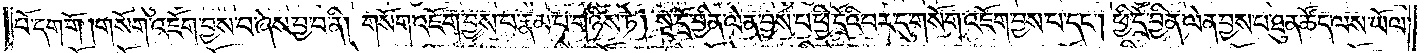པོ་དག་གོ །གསོག་འཇོག་བྱས་པ་ཞེས་བྱ་བ་ནི། གསོག་འཇོག་བྱས་པ་རྣམ་པ་གཉིས་ཏེ། སྔ་དྲོ་བྱིན་ལེན་བྱས་པ་ཕྱི་དྲོའི་བར་དུ་གསོག་འཇོག་བྱས་པ་དང༌། ཕྱི་དྲོ་བྱིན་ལེན་བྱས་པ་ཐུན་སྟོད་ལས་ཡོལ་
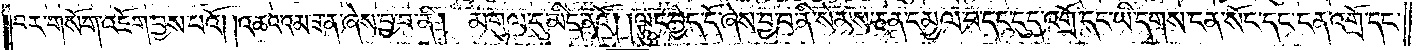བར་གསོག་འཇོག་བྱས་པའོ། །འཆའ་འམ་ཟ་ན་ཞེས་བྱ་བ་ནི། མགུལ་དུ་མིད་ནའོ། །ལྟུང་བྱེད་དོ་ཞེས་བྱ་བ་ནི་སེམས་ཅན་དམྱལ་བ་དང་དུད་འགྲོ་དང་ཡི་དྭགས་ངན་སོང་དང་ངན་འགྲོ་དང་
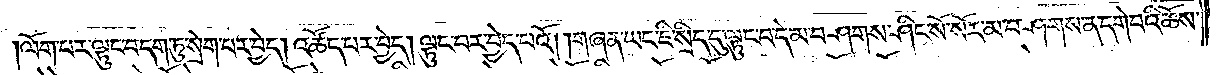ལོག་པར་ལྟུང་བ་དག་ཏུ་སྲེག་པར་བྱེད། འཚོད་པར་བྱེད། ལྟུང་བར་བྱེད་པའོ། །གཞན་ཡང་ཇི་སྲིད་དུ་ལྟུང་བ་དེ་མ་བཤགས་ཤིང་སོ་སོར་མ་བཤགས་ན་དགེ་བའི་ཆོས་
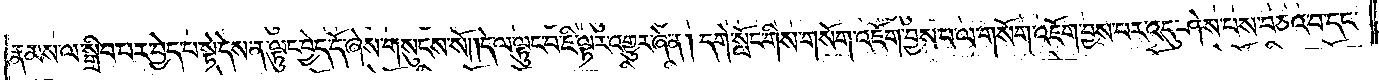རྣམས་ལ་སྒྲིབ་པར་བྱེད་པ་སྟེ་དེས་ན་ལྟུང་བྱེད་དོ་ཞེས་གསུངས་སོ༎དེ་ལ་ལྟུང་བ་ཇི་ལྟར་འགྱུར་ཞེ་ན། དགེ་སློང་གིས་གསོག་འཇོག་བྱས་པ་ལ་གསོག་འཇོག་བྱས་པར་འདུ་ཤེས་པས་བཅའ་བ་དང་
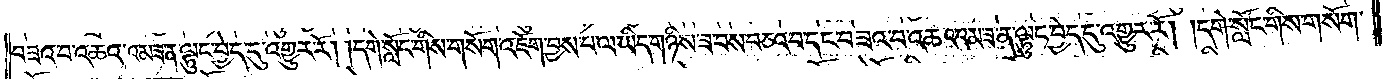བཟའ་བ་འཆའ་འམ་ཟ་ན་ལྟུང་བྱེད་དུ་འགྱུར་རོ། །དགེ་སློང་གིས་གསོག་འཇོག་བྱས་པ་ལ་ཡིད་གཉིས་ཟ་བས་བཅའ་བ་དང་བཅའ་བ་འཆའ་འམ་ཟ་ན་ལྟུང་བྱེད་དུ་འགྱུར་རོ། །དགེ་སློང་གིས་གསོག་
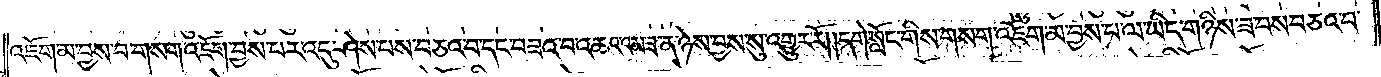འཇོག་མ་བྱས་པ་གསག་འཇོག་བྱས་པར་འདུ་ཤེས་པས་བཅའ་བ་དང་བཟའ་བ་འཆའ་འམ་ཟ་ན་ཉེས་བྱས་སུ་འགྱུར་རོ། །དགེ་སློང་གིས་གསག་འཇོག་མ་བྱས་པ་ལ་ཡིད་གཉིས་ཟ་བས་བཅའ་བ་
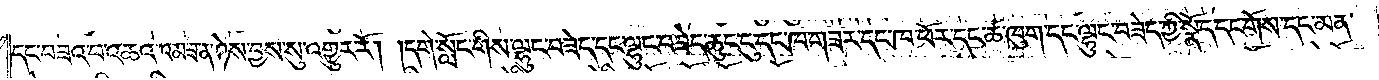དང་བཟའ་བ་འཆའ་འམ་ཟ་ན་ཉེས་བྱས་སུ་འགྱུར་རོ། །དགེ་སློང་གིས་ལྷུང་བཟེད་དང་ལྷུང་བཟེད་ཆུང་ངུ་དང་ཁ་གཟར་དང་ཁ་ཕོར་དང་ཚ་ཁུག་དང་ལྷུང་བཟེད་ཀྱི་སྣོད་དང་གོས་དང་མན་
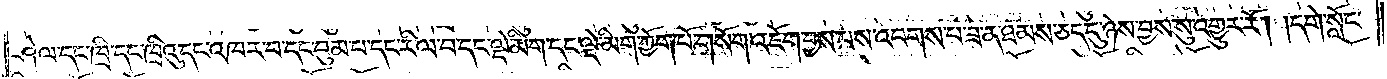ཤེལ་དང་ཁྲི་དང་ཁྲིའུ་དང་འཁར་བ་དང་བུམ་པ་དང་རིལ་བ་དང་ལྡེ་མིག་དང་ལྡེ་མིག་ཀྱོག་པོ་གསོག་འཇོག་བྱས་པས་འབགས་པ་ཟ་ན་ཐམས་ཅད་དུ་ཉེས་བྱས་སུ་འགྱུར་རོ། །དགེ་སློང་
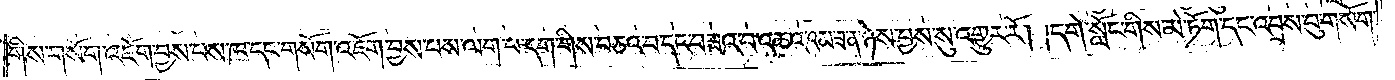གིས་གསོག་འཇོག་བྱས་པས་ཁ་དང་གསོག་འཇོག་བྱས་པས་ལག་པ་དག་གིས་བཅའ་བ་དང་བཟའ་བ་འཆའ་འམ་ཟ་ན་ཉེས་བྱས་སུ་འགྱུར་རོ། །དགེ་སློང་གིས་མེ་ཏོག་དང་འབྲས་བུ་གསོག་
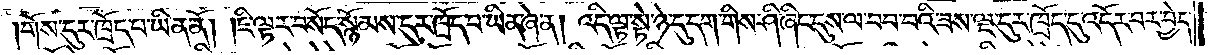གོས་དུར་ཁྲོད་པ་ཡིན་ནོ། །ཇི་ལྟར་བསོད་སྙོམས་དུར་ཁྲོད་པ་ཡིན་ཞེ་ན། འདི་ལྟ་སྟེ་ཉེ་དུ་དག་གིས་ཤི་ཞིང་དུས་ལ་བབ་པའི་ཟས་ལྔ་དུར་ཁྲོད་དུ་འདོར་བར་བྱེད་
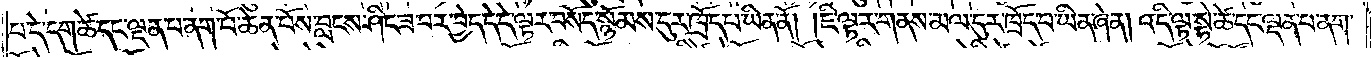པ་དེ་དག་ཚེ་དང་ལྡན་པ་ནག་པོ་ཆེན་པོས་བླངས་ཤིང་ཟ་བར་བྱེད་དེ་དེ་ལྟར་བསོད་སྙོམས་དུར་ཁྲོད་པ་ཡིན་ནོ། །ཇི་ལྟར་གནས་མལ་དུར་ཁྲོད་པ་ཡིན་ཞེ་ན། འདི་ལྟ་སྟེ་ཚེ་དང་ལྡན་པ་ནག་
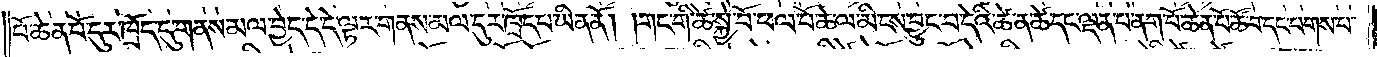པོ་ཆེན་པོ་དུར་ཁྲོད་དུ་གནས་མལ་བྱེད་དེ་དེ་ལྟར་གནས་མལ་དུར་ཁྲོད་པ་ཡིན་ནོ། །གང་གི་ཚེ་སྐྱེ་བོ་ཕལ་པོ་ཆེ་ལ་མི་ངས་བྱུང་བ་དེའི་ཚེ་ན་ཚེ་དང་ལྡན་པ་ནག་པོ་ཆེན་པོ་ཚོ་བ་དང་པགས་པ་
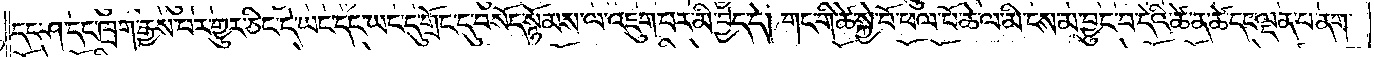དང་ཤ་དང་ཁྲག་རྒྱས་པར་གྱུར་ཅིང་དེ་ཡང་དང་ཡང་དུ་གྲོང་དུ་བསོད་སྙོམས་ལ་འཇུག་པར་མི་བྱེད་དེ། གང་གི་ཚེ་སྐྱེ་བོ་ཕལ་པོ་ཆེ་ལ་མི་ངས་མ་བྱུང་བ་དེའི་ཚེ་ན་ཚེ་དང་ལྡན་པ་ནག་
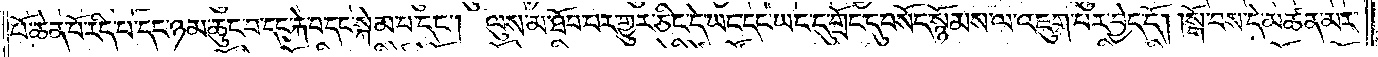པོ་ཆེན་པོ་རིད་པ་དང་ཉམ་ཆུང་བ་དང་རྐེ་བ་དང་སྐེམ་པ་དང༌། ལུས་མ་ཐོབ་པར་གྱུར་ཅིང་དེ་ཡང་དང་ཡང་དུ་གྲོང་དུ་བསོད་སྙོམས་ལ་འཇུག་པར་བྱེད་དོ། །སྒོ་བས་དེ་མཚན་མར་
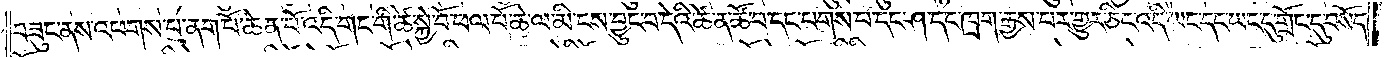བཟུང་ནས་འཕགས་པ་ནག་པོ་ཆེན་པོ་འདི་གང་གི་ཚེ་སྐྱེ་བོ་ཕལ་པོ་ཆེ་ལ་མི་ངས་བྱུང་བ་དེའི་ཚེ་ན་ཚོ་བ་དང་པགས་པ་དང་ཤ་དང་ཁྲག་རྒྱས་པར་གྱུར་ཅིང་འདི་ཡང་དང་ཡང་དུ་གྲོང་དུ་བསོད་
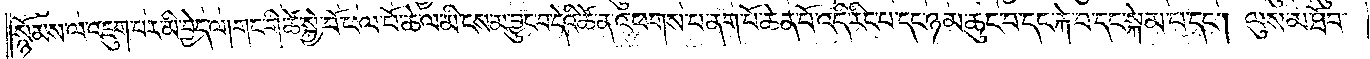སྙོམས་ལ་འཇུག་པར་མི་བྱེད་ལ།གང་གི་ཚེ་སྐྱེ་བོ་ཕལ་པོ་ཆེ་ལ་མི་ངས་མ་བྱུང་བ་དེའི་ཚེ་ན་འཕགས་པ་ནག་པོ་ཆེན་པོ་འདི་རིང་བ་དང་ཉམ་ཆུང་བ་དང་རྐེ་བ་དང་སྐེམ་པ་དང༌། ལུས་མ་ཐོབ་
